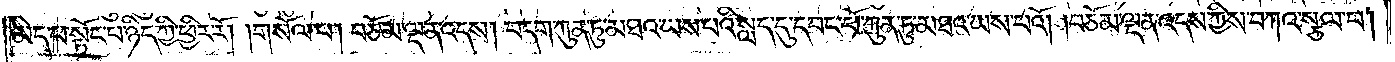མེད་པ་སྟོང་པ་ཉིད་ཀྱི་ཕྱིར་རོ། །གསོལ་པ། བཅོམ་ལྡན་འདས། བདག་ཀུན་ཏུ་མཐའ་ཡས་པའི་སླད་དུ་དབང་པོ་ཀུན་ཏུ་མཐའ་ཡས་པའོ། །བཅོམ་ལྡན་འདས་ཀྱིས་བཀའ་སྩལ་པ།
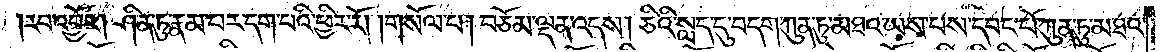རབ་འབྱོར། ཤིན་ཏུ་རྣམ་པར་དག་པའི་ཕྱིར་རོ། །གསོལ་པ། བཅོམ་ལྡན་འདས། ཅིའི་སླད་དུ་བདག་ཀུན་ཏུ་མཐའ་ཡས་པས་དབང་པོ་ཀུན་ཏུ་མཐའ་
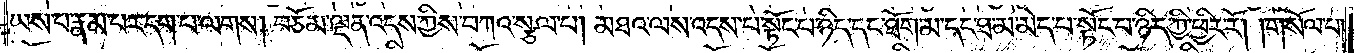ཡས་པ་རྣམ་པར་དག་པ་ལགས། བཅོམ་ལྡན་འདས་ཀྱིས་བཀའ་སྩལ་པ། མཐའ་ལས་འདས་པ་སྟོང་པ་ཉིད་དང་ཐོག་མ་དང་ཐ་མ་མེད་པ་སྟོང་པ་ཉིད་ཀྱི་ཕྱིར་རོ། །གསོལ་པ།
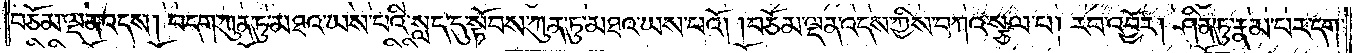བཅོམ་ལྡན་འདས། བདག་ཀུན་ཏུ་མཐའ་ཡས་པའི་སླད་དུ་སྟོབས་ཀུན་ཏུ་མཐའ་ཡས་པའོ། །བཅོམ་ལྡན་འདས་ཀྱིས་བཀའ་སྩལ་པ། རབ་འབྱོར། ཤིན་ཏུ་རྣམ་པར་དག་
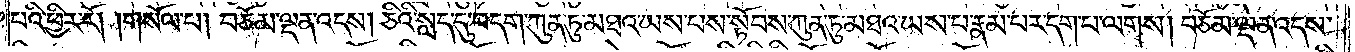པའི་ཕྱིར་རོ། །གསོལ་པ། བཅོམ་ལྡན་འདས། ཅིའི་སླད་དུ་བདག་ཀུན་ཏུ་མཐའ་ཡས་པས་སྟོབས་ཀུན་ཏུ་མཐའ་ཡས་པ་རྣམ་པར་དག་པ་ལགས། བཅོམ་ལྡན་འདས་
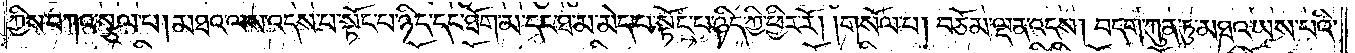ཀྱིས་བཀའ་སྩལ་པ། མཐའ་ལས་འདས་པ་སྟོང་པ་ཉིད་དང་ཐོག་མ་དང་ཐ་མ་མེད་པ་སྟོང་པ་ཉིད་ཀྱི་ཕྱིར་རོ། །གསོལ་པ། བཅོམ་ལྡན་འདས། བདག་ཀུན་ཏུ་མཐའ་ཡས་པའི་
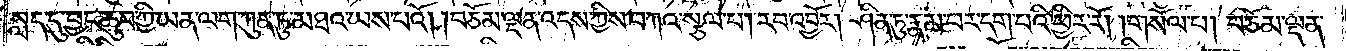སླད་དུ་བྱང་ཆུབ་ཀྱི་ཡན་ལག་ཀུན་ཏུ་མཐའ་ཡས་པའོ། །བཅོམ་ལྡན་འདས་ཀྱིས་བཀའ་སྩལ་པ། རབ་འབྱོར། ཤིན་ཏུ་རྣམ་པར་དག་པའི་ཕྱིར་རོ། །གསོལ་པ། བཅོམ་ལྡན་
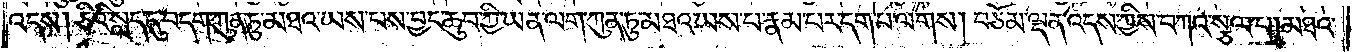འདས། ཅིའི་སླད་དུ་བདག་ཀུན་ཏུ་མཐའ་ཡས་པས་བྱང་ཆུབ་ཀྱི་ཡན་ལག་ཀུན་ཏུ་མཐའ་ཡས་པ་རྣམ་པར་དག་པ་ལགས། བཅོམ་ལྡན་འདས་ཀྱིས་བཀའ་སྩལ་པ། མཐའ་
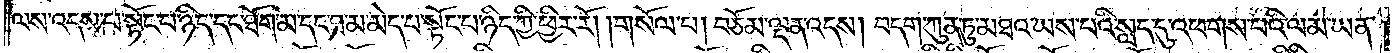ལས་འདས་པ་སྟོང་པ་ཉིད་དང་ཐོག་མ་དང་ཐ་མ་མེད་པ་སྟོང་པ་ཉིད་ཀྱི་ཕྱིར་རོ། །གསོལ་པ། བཅོམ་ལྡན་འདས། བདག་ཀུན་ཏུ་མཐའ་ཡས་པའི་སླད་དུ་འཕགས་པའི་ལམ་ཡན་
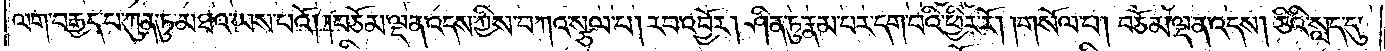ལག་བརྒྱད་པ་ཀུན་ཏུ་མཐའ་ཡས་པའོ། །བཅོམ་ལྡན་འདས་ཀྱིས་བཀའ་སྩལ་པ། རབ་འབྱོར། ཤིན་ཏུ་རྣམ་པར་དག་པའི་ཕྱིར་རོ། །གསོལ་པ། བཅོམ་ལྡན་འདས། ཅིའི་སླད་དུ་
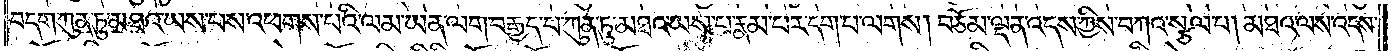བདག་ཀུན་ཏུ་མཐའ་ཡས་པས་འཕགས་པའི་ལམ་ཡན་ལག་བརྒྱད་པ་ཀུན་ཏུ་མཐའ་ཡས་པ་རྣམ་པར་དག་པ་ལགས། བཅོམ་ལྡན་འདས་ཀྱིས་བཀའ་སྩལ་པ། མཐའ་ལས་འདས་
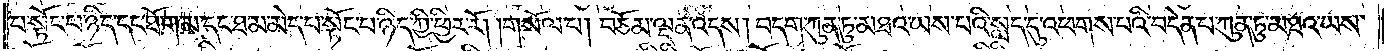པ་སྟོང་པ་ཉིད་དང་ཐོག་མ་དང་ཐ་མ་མེད་པ་སྟོང་པ་ཉིད་ཀྱི་ཕྱིར་རོ། །གསོལ་པ། བཅོམ་ལྡན་འདས། བདག་ཀུན་ཏུ་མཐའ་ཡས་པའི་སླད་དུ་འཕགས་པའི་བདེན་པ་ཀུན་ཏུ་མཐའ་ཡས་
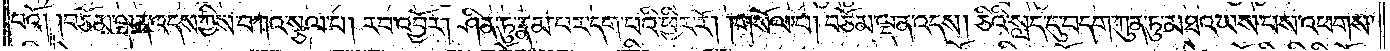པའོ། །བཅོམ་ལྡན་འདས་ཀྱིས་བཀའ་སྩལ་པ། རབ་འབྱོར། ཤིན་ཏུ་རྣམ་པར་དག་པའི་ཕྱིར་རོ། །གསོལ་པ། བཅོམ་ལྡན་འདས། ཅིའི་སླད་དུ་བདག་ཀུན་ཏུ་མཐའ་ཡས་པས་འཕགས་
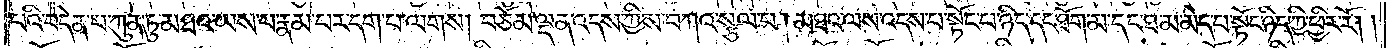པའི་བདེན་པ་ཀུན་ཏུ་མཐའ་ཡས་པ་རྣམ་པར་དག་པ་ལགས། བཅོམ་ལྡན་འདས་ཀྱིས་བཀའ་སྩལ་པ། མཐའ་ལས་འདས་པ་སྟོང་པ་ཉིད་དང་ཐོག་མ་དང་ཐ་མ་མེད་པ་སྟོང་པ་ཉིད་ཀྱི་ཕྱིར་རོ། །
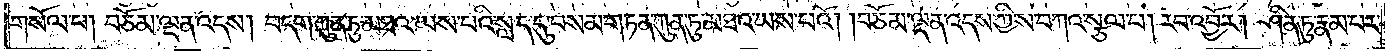གསོལ་པ། བཅོམ་ལྡན་འདས། བདག་ཀུན་ཏུ་མཐའ་ཡས་པའི་སླད་དུ་བསམ་གཏན་ཀུན་ཏུ་མཐའ་ཡས་པའོ། །བཅོམ་ལྡན་འདས་ཀྱིས་བཀའ་སྩལ་པ། རབ་འབྱོར། ཤིན་ཏུ་རྣམ་པར་
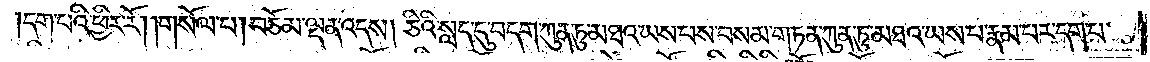དག་པའི་ཕྱིར་རོ། །གསོལ་པ། བཅོམ་ལྡན་འདས། ཅིའི་སླད་དུ་བདག་ཀུན་ཏུ་མཐའ་ཡས་པས་བསམ་གཏན་ཀུན་ཏུ་མཐའ་ཡས་པ་རྣམ་པར་དག་པ་
